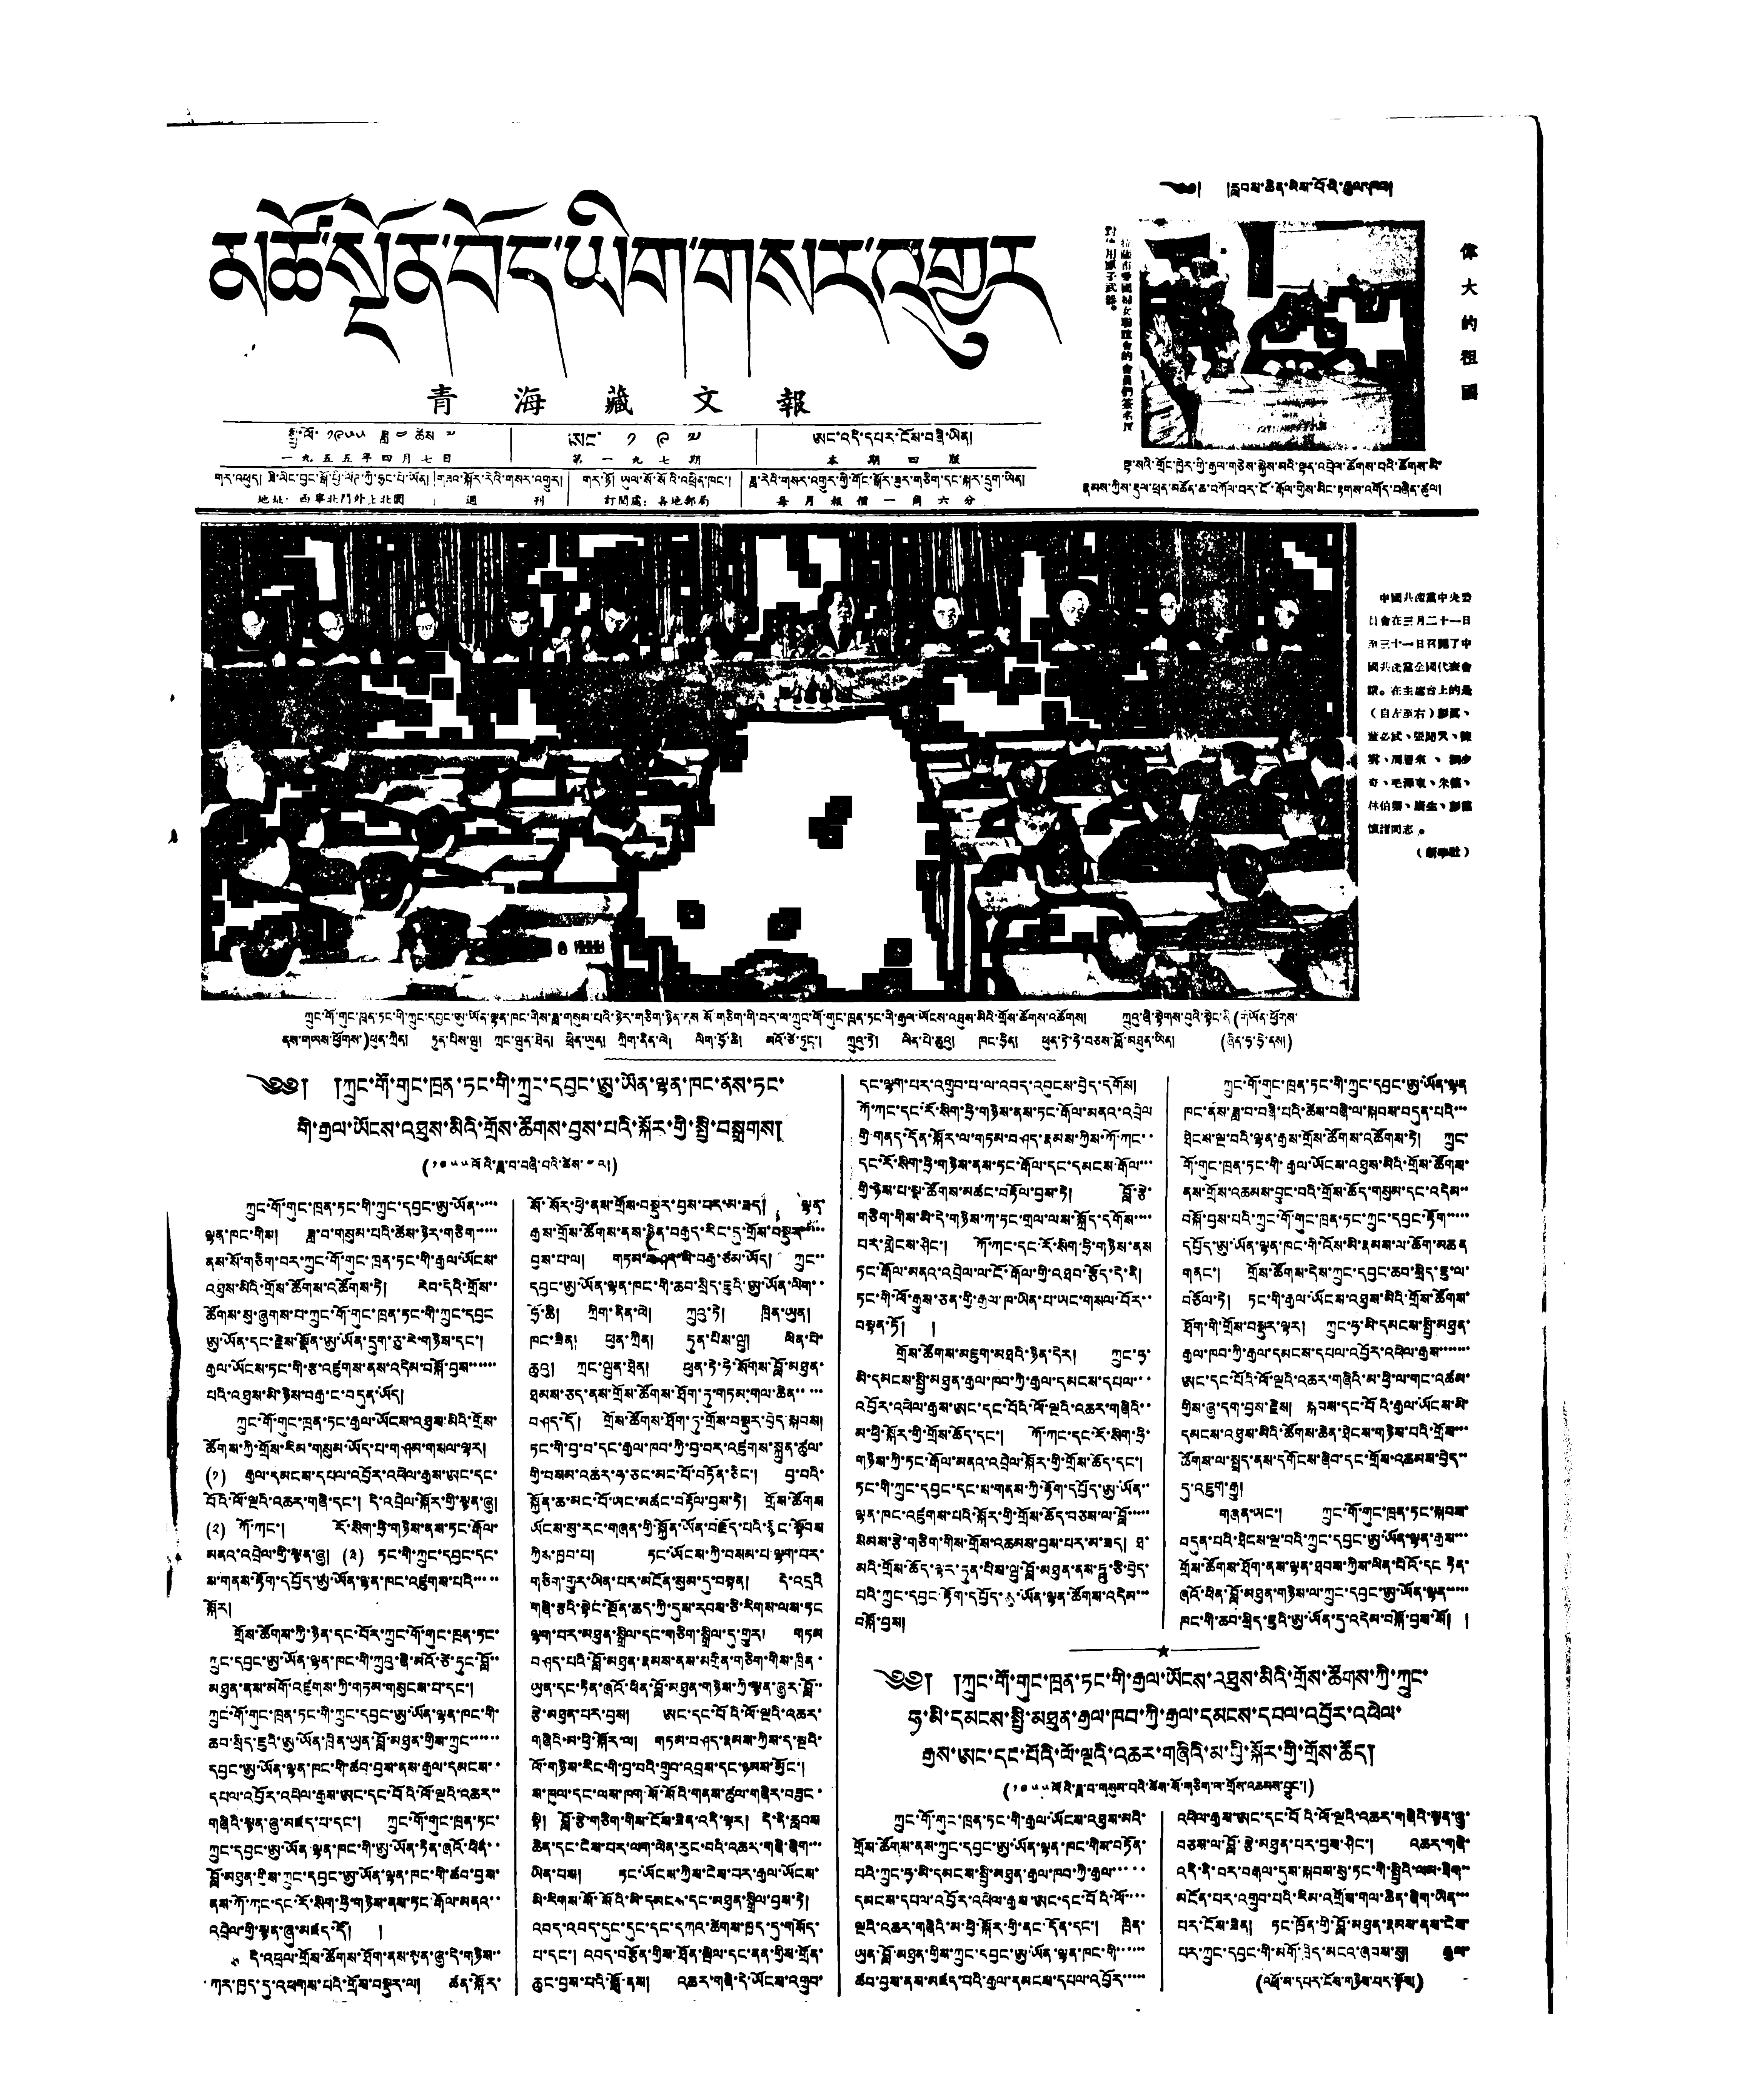མཚོ་སྔོན་བོད་ཡིག་གསར་འགྱུར
青 海 藏 文 報
༄༅། །རླབས་ཆེན་མེས་པོའི་རྒྱལ་ཁབ།
偉 大 的 祖 國
拉薩市愛國婦女聯誼會的會員們簽名反
對使用原子武器。
ལྷ་སའི་གྲོང་ཁྱེར་གྱི་རྒྱལ་གཅེས་སྐྱེལ་མའི་ལྷན་འབྲེལ་ཚོགས་པའི་ཚོགས་མི་
རྣམས་ཀྱིས་རྡུལ་ཕྲན་མཚོན་ཆ་བཀོལ་བར་ངོ་རྒོལ་གྱིས་མིང་རྟགས་འགོད་བཞིན་ཚུལ།
中國共產黨中央委
員會在三月二十一日
至三十一日召開了中
國共產黨全國代表會
議。在主席台上的是
（自左至右）彭眞、
董必武、張聞天、陳
雲、周恩來、劉少
奇、毛澤東、朱德、
林伯渠、康生、彭德
懷諸同志。
（新華社）
ཀྲུང་གོ་གུང་ཁྲན་ཏང་གི་ཀྲུང་དབྱང་ཨུ་ཡོན་ལྷན་ཁང་གིས་ཟླ་གསུམ་པའི་ཉེར་གཅིག་ཉིན་ནས སོ་གཅིག་གི་བར་ལ་ཀྲུང་གོ་གུང་ཁྲན་ཏང་གི་རྒྱལ་ཡོངས་འཐུས་མིའི་གྲོས་ཚོགས་འཚོགས། ཀྲུའུ་ཞི་སྟེགས་བུའི་སྟེང་ནི(གཡོན་ཕྱོགས་
ནས་གཡས་ཕྱོགས་)ཕུན་ཀྲིན། ཏུན་པིས་ཝུ། ཀྲང་ཝུན་ཐེན། ཕྲིན་ཡུན། ཀྲིག་ནིན་ལེ། ལིག་ཧྲོ་ཆི། མའོ་ཙེ་ཏུང་། ཀྲུའུ་ཏེ། ལིན་པེ་ཆུའུ། ཁང་ཧྲིན། ཕུན་ཏེ་ཧེ་བཅས་བློ་མཐུན་ཡིན། (ཞིན་ཧྭ་ཧྲེ་ནས།)
༄༅། །ཀྲུང་གོ་གུང་ཁྲན་ཏང་གི་ཀྲུང་དབྱང་ཨུ་ཡོན་ལྷན་ཁང་ནས་ཏང་
གི་རྒྱལ་ཡོངས་འཐུས་མིའི་གྲོས་ཚོགས་བྱས་པའི་སྐོར་གྱི་སྤྱི་བསྒྲགས།
(༡༩༥༥ ལོའི་ཟླ་བ་བཞི་པའི་ཚེས་ ༤ ལ།)
ཀྲུང་གོ་གུང་ཁྲན་ཏང་གི་ཀྲུང་དབྱང་ཨུ་ཡོན་་་་་
ལྷན་ཁང་གིས། ཟླ་བ་གསུམ་པའི་ཚེས་ཉེར་གཅིག་་་་་
ནས་སོ་གཅིག་བར་ཀྲུང་གོ་གུང་ཁྲན་ཏང་གི་རྒྱལ་ཡོངས་
འཐུས་མིའི་གྲོས་ཚོགས་འཚོགས་ཏེ། རེབ་དེའི་གྲོས་་
ཚོགས་སུ་ཞུགས་པ་ཀྲུང་གོ་གུང་ཁྲན་ཏང་གི་ཀྲུང་དབྱང
ཨུ་ཡོན་དང་རྗེས་སྣོན་ཨུ་ཡོན་དྲུག་ཅུ་རེ་གཉིས་དང་།
རྒྱལ་ཡོངས་ཏང་གི་རྩ་འཛུགས་ནས་འདེམ་བསྐོ་བྱས་་་་་་
པའི་འཐུས་མི་ཉིས་བརྒྱ་ང་བདུན་ཡོད།
ཀྲུང་གོ་གུང་ཁྲན་ཏང་རྒྱལ་ཡོངས་འཐུས་མིའི་གྲོས་
ཚོགས་ཀྱི་གྲོས་རིམ་གསུམ་ཡོད་པ་གཤམ་གསལ་ལྟར།
(༡) རྒྱལ་དམངས་དཔལ་འབྱོར་འཕེལ་རྒྱས་ཨང་དང་
པོའི་ལོ་ལྔའི་འཆར་གཞི་དང་། དེ་འབྲེལ་སྐོར་གྱི་སྙན་ཞུ།
(༢) ཀོ་ཀང་། རོ་སིག་ཧྲི་གཉིས་ནས་ཏང་རྒོལ་
མནའ་འབྲེལ་གྱི་སྙན་ཞུ། (༣) ཏང་གི་ཀྲུང་དབྱང་དང་
ས་གནས་རྟོག་དཔྱོད་ཨུ་ཡོན་ལྷན་ཁང་འཛུགས་པའི་་་་་
སྐོར།
གྲོས་ཚོགས་ཀྱི་ཉིན་དང་པོར་ཀྲུང་གོ་གུང་ཁྲན་ཏང་
ཀྲུང་དབྱང་ཨུ་ཡོན་ལྷན་ཁང་གི་ཀྲུའུ་ཞི་མའོ་ཙེ་ཏུང་བློ་་
མཐུན་ནས་མགོ་འཛུགས་ཀྱི་གཏམ་གསུངས་པ་དང་།
ཀྲུང་གོ་གུང་ཁྲན་ཏང་གི་ཀྲུང་དབྱང་ཨུ་ཡོན་ལྷན་ཁང་གི་
ཆབ་སྲིད་ཇུའི་ཨུ་ཡོན་ཁྲིན་ཡུན་བློ་མཐུན་གྱིས་ཀྲུང་་་་་་
དབྱང་ཨུ་ཡོན་ལྷན་ཁང་གི་ཚབ་བྱས་ནས་རྒྱལ་དམངས་་
དཔལ་འབྱོར་འཕེལ་རྒྱས་ཨང་དང་པོའི་ལོ་ལྔའི་འཆར་་
གཞིའི་སྙན་ཞུ་མཛད་པ་དང་། ཀྲུང་གོ་གུང་ཁྲན་ཏང་
ཀྲུང་དབྱང་ཨུ་ཡོན་ལྷན་ཁང་གི་ཨུ་ཡོན་ཏིན་ཞའོ་ཕིན་་
བློ་མཐུན་གྱིས་ཀྲུང་དབྱང་ཨུ་ཡོན་ལྷན་ཁང་གི་ཚབ་བྱས་
ནས་ཀོ་ཀང་དང་རོ་སིག་ཧྲི་གཉིས་ནས་ཏང་རྒོལ་མནའ་་
འབྲེལ་གྱི་སྙན་ཞུ་མཛད་དོ། །
དེ་འཕྲལ་གྲོས་ཚོགས་ཐོག་ནས་སྙན་ཞུ་དེ་གཉིས་་
ཀར་ཁྱད་དུ་འཕགས་པའི་གྲོས་བསྡུར་ལ། ཚན་སྐོར་
སོ་སོར་ཕྱེ་ནས་གྲོས་བསྡུར་བྱས་པར་མ་ཟད། ལྷན་
རྒྱས་གྲོས་ཚོགས་ནས་ཉིན་བརྒྱད་རིང་དུ་གྲོས་བསྡུར་་་
བྱས་པ་ལ། གཏམ་བཤད་མི་བརྒྱ་ཙམ་ཡོད། ཀྲུང་་
དབྱང་ཨུ་ཡོན་ལྷན་ཁང་གི་ཆབ་སྲིད་ཇུའི་ཨུ་ཡོན་ལིག་་
ཧྲོ་ཆི། ཀྲིག་ནིན་ལེ། ཀྲུའུ་ཏེ། ཁྲིན་ཡུན།
ཁང་ཟིན། ཕུན་ཀྲིན། ཏུན་པིས་ཝུ། ལིན་པེ་
ཆུའུ། ཀྲང་ཝུན་ཐེན། ཕུན་ཏེ་ཧེ་སོགས་བློ་མཐུན་
ཐམས་ཅད་ནས་གྲོས་ཚོགས་ཐོག་ཏུ་གཏམ་གལ་ཆེན་་་་་
བཤད་དོ། གྲོས་ཚོགས་ཐོག་ཏུ་གྲོས་བསྡུར་བྱེད་སྐབས།
ཏང་གི་བྱ་བ་དང་རྒྱལ་ཁབ་ཀྱི་བྱ་བར་འཛུགས་སྐྲུན་ཚུལ་
གྱི་བསམ་འཆར་ཧ་ཅང་མང་པོ་བཏོན་ཅིང་། བྱ་བའི་
སྐྱོན་ཆ་མང་པོ་ཡང་མཚང་བརྟོལ་བྱས་ཏེ། གྲོས་ཚོགས
ཡོངས་སུ་རང་གཞན་གྱི་སྐྱོན་ཡོན་བརྗོད་པའི་སྙིང་སྟོབས
ཀྱིས་ཁྱབ་པ། ཏང་ཡོངས་ཀྱི་བསམ་པ་ལྷག་པར་
གཅིག་གྱུར་ཡིན་པར་མངོན་སུམ་དུ་བསྟན། དེ་འདྲའི
གཞི་རྩའི་སྟེང་སྔོན་ཆད་ཀྱི་དུས་རབས་ཅི་རིགས་ལས་ཏང
ལྷག་པར་མཐུན་སྒྲིལ་དང་གཅིག་སྒྲིལ་དུ་གྱུར། གཏམ
བཤད་པའི་བློ་མཐུན་རྣམས་ནས་མགྲིན་གཅིག་གིས་ཁྲིན་
ཡུན་དང་རྟིན་ཞའོ་ཕིན་བློ་མཐུན་གཉིས་ཀྱི་སྙན་ཞུར་བློ་་
རྩེ་མཐུན་པར་བྱས། ཨང་དང་པོའི་ལོ་ལྔའི་འཆར་
གཞིའི་མ་ཕྱི་སྐོར་ལ། གཏམ་བཤད་རྣམས་ཀྱིས་ད་སྔའི་
ལོ་གཉིས་རིང་གི་བྱ་བའི་གྲུབ་འབྲས་དང་ཉམས་མྱོང་།
ས་ཁུལ་དང་ལས་ཁག་སོ་སོའི་གནས་ཚུལ་གཞིར་བཟུང་
སྟེ། བློ་རྩེ་གཅིག་གིས་ངོས་ཟིན་འདི་ལྟར། དེ་ནི་རླབས
ཆེན་དང་ངེས་པར་ལག་ལེན་རུང་བའི་འཆར་གཞི་ཞིག་་་
ཡིན་པས། ཏང་ཡོངས་ཀྱིས་ངེས་པར་རྒྱལ་ཡོངས་
མི་རིགས་སོ་སོའི་མི་དམངས་དང་མཐུན་སྒྲིལ་བྱས་ཏེ།
འབད་འབད་དུང་དུང་དང་དཀའ་ཚེགས་ཁྱད་དུ་གསོད་
པ་དང་། འབད་བརྩོན་གྱིས་ཐོན་སྤེལ་དང་ནན་གྱིས་གྲོན་
ཆུང་བྱས་པའི་སྒོ་ནས། འཆར་གཞི་དེ་ཡོངས་འགྲུབ་
དང་ལྷག་པར་འགྲུབ་པ་ལ་འབད་འབུངས་བྱེད་དགོས།
ཀོ་ཀང་དང་རོ་སིག་ཧྲི་གཉིས་ནས་ཏང་རྒོལ་མནའ་འབྲེལ
གྱི་གནད་དོན་སྐོར་ལ་གཏམ་བཤད་རྣམས་ཀྱིས་ཀོ་ཀང་་
དང་རོ་སིག་ཧྲི་གཉིས་ནས་ཏང་རྒོལ་དང་དམངས་རྒོལ་་་
གྱི་ཉེས་པ་སྣ་ཚོགས་མཚང་བརྟོལ་བྱས་ཏེ། བློ་རྩེ་
གཅིག་གིས་མི་དེ་གཉིས་ཀ་ཏང་གྲལ་ལས་སྐྱོད་དགོས་་་་
པར་གླེངས་ཤིང་། ཀོ་ཀང་དང་རོ་སིག་ཧྲི་གཉིས་ནས
ཏང་རྒོལ་མནའ་འབྲེལ་ལ་ངོ་རྒོལ་གྱི་འཐབ་རྩོད་དེ་ནི།
ཏང་གི་ལོ་རྒྱུས་ཅན་གྱི་རྒྱལ་ཁ་ཡིན་པ་ཡང་གསལ་བོར་་
བསྟན་ཏོ། །
གྲོས་ཚོགས་མཇུག་མཐའི་ཉིན་དེར། ཀྲུང་ཧྭ་
མི་དམངས་སྤྱི་མཐུན་རྒྱལ་ཁབ་ཀྱི་རྒྱལ་དམངས་དཔལ་་་
འབྱོར་འཕེལ་རྒྱས་ཨང་དང་པོའི་ལོ་ལྔའི་འཆར་གཞིའི་་
མ་ཕྱི་སྐོར་གྱི་གྲོས་ཆོད་དང་། ཀོ་ཀང་དང་རོ་སིག་ཧྲི་
གཉིས་ཀྱི་ཏང་རྒོལ་མནའ་འབྲེལ་སྐོར་གྱི་གྲོས་ཆོད་དང་།
ཏང་གི་ཀྲུང་དབྱང་དང་ས་གནས་ཀྱི་རྟོག་དཔྱོད་ཨུ་ཡོན་་
ལྷན་ཁང་འཛུགས་པའི་སྐོར་གྱི་གྲོས་ཆོད་བཅས་ལ་བློ་་་་་
སེམས་རྩེ་གཅིག་གིས་གྲོས་འཆམས་བྱས་པར་མ་ཟད། ཐ་
མའི་གྲོས་ཆོད་ལྟར་ཏུན་པིས་ཝུ་བློ་མཐུན་ནས་ཧྥུ་ཅི་བྱེད་
པའི་ཀྲུང་དབྱང་རྟོག་དཔྱོད་ཨུ་ཡོན་ལྷན་ཚོགས་འདེམ་་་
བསྐོ་བྱས།
ཀྲུང་གོ་གུང་ཁྲན་ཏང་གི་ཀྲུང་དབྱང་ཨུ་ཡོན་ལྷན
ཁང་ནས་ཟླ་བ་བཞི་པའི་ཚེས་བཞི་ལ་སྐབས་བདུན་པའི་་་
ཐེངས་ལྔ་བའི་ལྷན་རྒྱས་གྲོས་ཚོགས་འཚོགས་ཏེ། ཀྲུང་
གོ་གུང་ཁྲན་ཏང་གི་རྒྱལ་ཡོངས་འཐུས་མིའི་གྲོས་ཚོགས་
ནས་གྲོས་འཆམས་བྱུང་བའི་གྲོས་ཆོད་གསུམ་དང་འདེམ་་
བསྐོ་བྱས་པའི་ཀྲུང་གོ་གུང་ཁྲན་ཏང་ཀྲུང་དབྱང་རྟོག་་་་་
དཔྱོད་ཨུ་ཡོན་ལྷན་ཁང་གི་འོས་མི་རྣམས་ལ་ཆོག་མཆན
གནང་། གྲོས་ཚོགས་དེས་ཀྲུང་དབྱང་ཆབ་སྲིད་ཇུ་ལ་
བཅོལ་ཏེ། ཏང་གི་རྒྱལ་ཡོངས་འཐུས་མིའི་གྲོས་ཚོགས་
ཐོག་གི་གྲོས་བསྡུར་ལྟར། ཀྲུང་ཧྭ་མི་དམངས་སྤྱི་མཐུན་
རྒྱལ་ཁབ་ཀྱི་རྒྱལ་དམངས་དཔལ་འབྱོར་འཕེལ་རྒྱས་་་་་་་
ཨང་དང་པོའི་ལོ་ལྔའི་འཆར་གཞིའི་མ་ཕྱི་ལ་གང་འཚམ་
གྱིས་ཞུ་དག་བྱས་རྗེས། སྐབས་དང་པོའི་རྒྱལ་ཡོངས་མི་
དམངས་འཐུས་མིའི་ཚོགས་ཆེན་ཐེངས་གཉིས་པའི་གྲོས་་་
ཚོགས་ལ་སྤྲད་ནས་དགོངས་ཞིབ་དང་གྲོས་འཆམས་བྱེད་་
དུ་འཇུག་རྒྱུ།
གཞན་ཡང་། ཀྲུང་གོ་གུང་ཁྲན་ཏང་སྐབས་
བདུན་པའི་ཐེངས་ལྔ་བའི་ཀྲུང་དབྱང་ཨུ་ཡོན་ལྷན་རྒྱས་་་
གྲོས་ཚོགས་ཐོག་ནས་ལྷན་ཐབས་ཀྱིས་ལིན་པེའོ་དང ཏིན་
ཞའོ་ཕིན་བློ་མཐུན་གཉིས་ལ་ཀྲུང་དབྱང་ཨུ་ཡོན་ལྷན་་་་་
ཁང་གི་ཆབ་སྲིད་ཇུའི་ཨུ་ཡོན་དུ་འདེམ་བསྐོ་བྱས་སོ། །
༄༅། །ཀྲུང་གོ་གུང་ཁྲན་ཏང་གི་རྒྱལ་ཡོངས་འཐུས་མིའི་གྲོས་ཚོགས་ཀྱི་ཀྲུང་
ཧྭ་མི་དམངས་སྤྱི་མཐུན་རྒྱལ་ཁབ་ཀྱི་རྒྱལ་དམངས་དཔལ་འབྱོར་འཕེལ་
རྒྱས་ཨང་དང་པོའི་ལོ་ལྔའི་འཆར་གཞིའི་མ་ཕྱི་སྐོར་གྱི་གྲོས་ཚོད།
(༡༩༥༥ ལོའི་ཟླ་བ་གསུམ་པའི་ཚེས་སོ་གཅིག་ལ་གྲོས་འཆམས་བྱུང་།)
ཀྲུང་གོ་གུང་ཁྲན་ཏང་གི་རྒྱལ་ཡོངས་འཐུས་མའི་
གྲོས་ཚོགས་ནས་ཀྲུང་དབྱང་ཨུ་ཡོན་ལྷན་ཁང་གིས་བཏོན་
པའི་ཀྲུང་ཧྭ་མི་དམངས་སྤྱི་མཐུན་རྒྱལ་ཁབ་ཀྱི་རྒྱལ་་་་་
དམངས་དཔལ་འབྱོར་འཕེལ་རྒྱས་ཨང་དང་པོའི་ལོ་་་་
ལྔའི་འཆར་གཞིའི་མ་ཕྱི་སྐོར་གྱི་ནང་དོན་དང་། ཁྲིན་
ཡུན་བློ་མཐུན་གྱིས་ཀྲུང་དབྱང་ཨུ་ཡོན་ལྷན་ཁང་གི་་་་་་
ཚབ་བྱས་ནས་མཛད་པའི་རྒྱལ་དམངས་དཔལ་འབྱོར་་་་་
འཕེལ་རྒྱས་ཨང་དང་པོའི་ལོ་ལྔའི་འཆར་གཞིའི་སྟན་ཞུ་
བཅས་ལ་བློ་རྩེ་མཐུན་པར་བྱས་ཤིང་། འཆར་གཞི་
འདི་ནི་བར་བརྒལ་དུས་སྐབས་སུ་ཏང་གི་སྤྱིའི་ལམ་ཐིག་་
མངོན་པར་འགྲུབ་པའི་རིམ་འགྲོས་གལ་ཆེན་ཞིག་ཡིན་་་
པར་ངོས་ཟིན། ཏང་ཁྱོན་གྱི་བློ་མཐུན་རྣམས་ནས་ངེས་
པར་ཀྲུང་དབྱང་གི་མགོ་ཁྲིད་མངའ་ཞབས་སུ། རྒྱལ་
(འཕྲོ་མ་དཔར་ངོས་གཉིས་པར་ལྟོས།)
